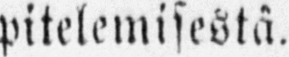pitelemisestä.
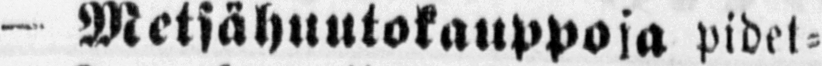- Metsähuutokauppoja pidet-
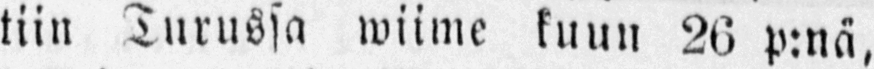tiin Turussa wiime kuun 26 p:nä,
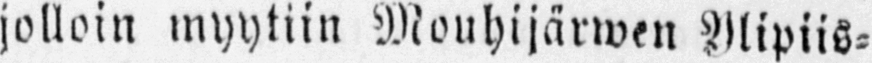jolloin myytiin Mouhijärwen Ylipiis-
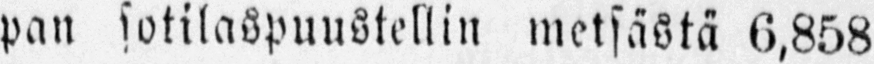pan sotilaspuustellin metsästä 6,858
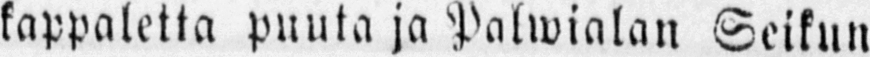kappaletta puuta ja Palwialan Seikun
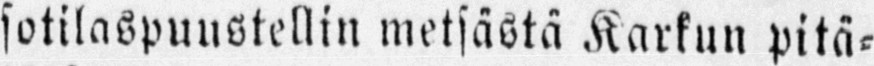sotilaspuustellin metsästä Karkun pitä-
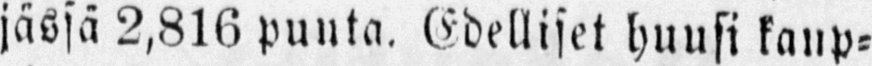jässä 2,816 punta. (Edelliset huusi kaup-
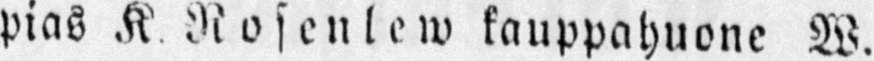pias K. Rosenlew kauppahuone W.
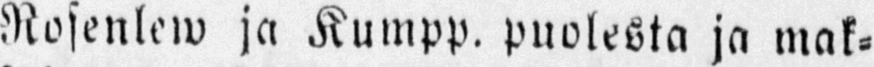Rosenlew ja Kumpp. puolesta ja mak-
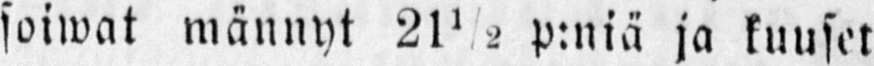soiwat männyt 21 ½ p:niä ja kuuset
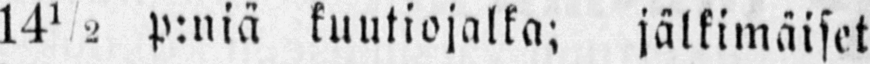14 ½ p:niä kuutiojalka; jälkimäiset
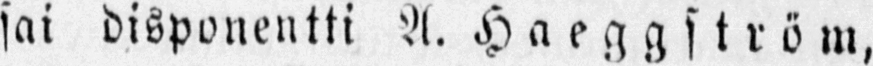sai disponentti A. H ae gg str öm,
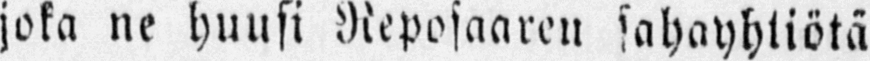joka ne huusi Reposaaren sahayhtiötä
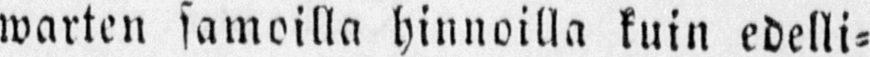warten samoilla hinnoilla kuin edelli-
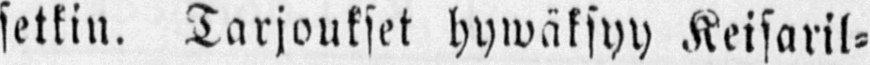setkin. Tarjoukset hywäksyy Keisaril-
